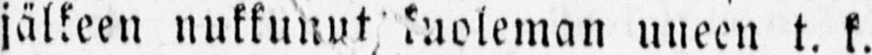jälkeen nukkunut kuoleman uneen t. k.
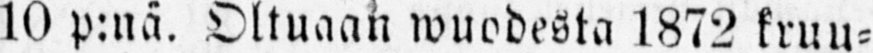10 p:nä. Oltuaan wuodesta 1872 kruu-
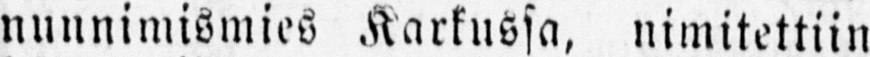nunnimismies Karkussa, nimitettiin
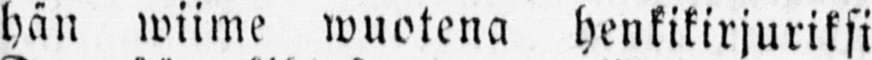hän wiime wuotena henkikirjuriksi
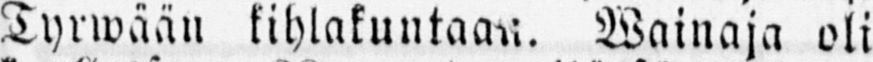Tyrwään kihlakuntaan. Wainaja oli
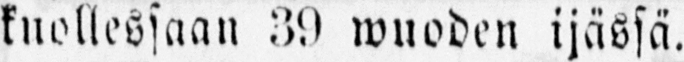kuollessaan 39 wuoden ijässä.
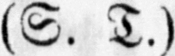(S. T.)
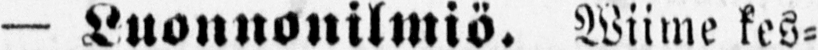— Luonnonilmiö. Wiime kes-
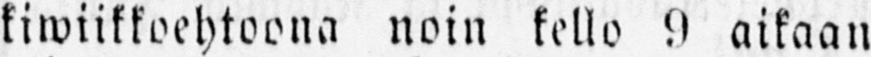kiwiikkoehtoona noin kello 9 aikaan
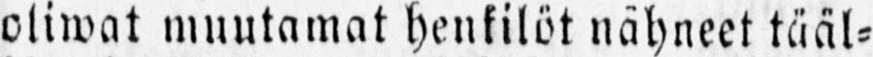oliwat muutamat henkilöt nähneet tääl-
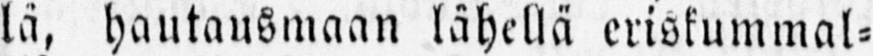lä, hautausmaan lähellä eriskummal-
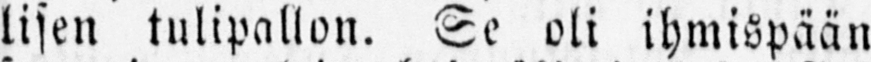lisen tulipallon. Se oli ihmispään
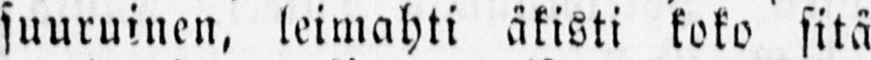suuruinen, leimahti äkisti koko sitä
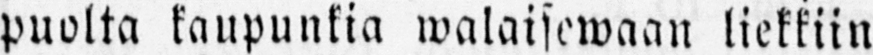puolta kaupunkia walaisewaan liekkiin
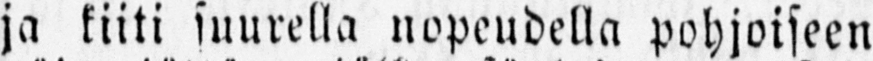ja kiiti suurella nopeudella pohjoiseen
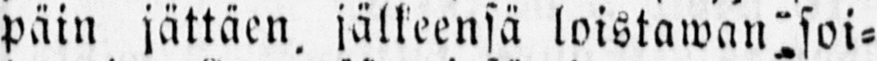päin jättäen jälkeensä loistawan soi-
